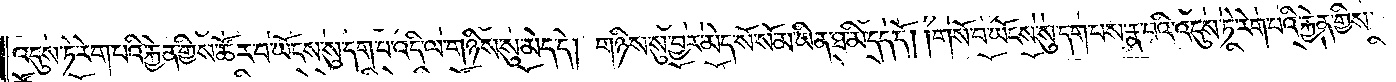འདུས་ཏེ་རེག་པའི་རྐྱེན་གྱིས་ཚོར་བ་ཡོངས་སུ་དག་པ་འདི་ལ་གཉིས་སུ་མེད་དེ། གཉིས་སུ་བྱར་མེད་སོ་སོ་མ་ཡིན་ཐ་མི་དད་དོ། །གསོ་བ་ཡོངས་སུ་དག་པས་རྣ་བའི་འདུས་ཏེ་རེག་པའི་རྐྱེན་གྱིས་
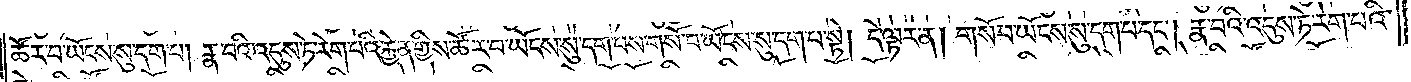ཚོར་བ་ཡོངས་སུ་དག་པ། རྣ་བའི་འདུས་ཏེ་རེག་པའི་རྐྱེན་གྱིས་ཚོར་བ་ཡོངས་སུ་དག་པས་གསོ་བ་ཡོངས་སུ་དག་པ་སྟེ། དེ་ལྟར་ན། གསོ་བ་ཡོངས་སུ་དག་པ་དང༌། རྣ་བའི་འདུས་ཏེ་རེག་པའི་
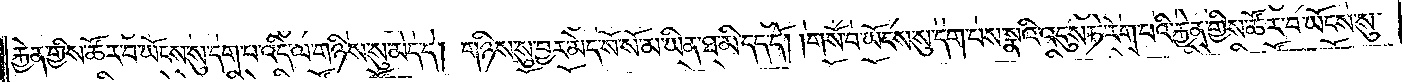རྐྱེན་གྱིས་ཚོར་བ་ཡོངས་སུ་དག་པ་འདི་ལ་གཉིས་སུ་མེད་དེ། གཉིས་སུ་བྱར་མེད་སོ་སོ་མ་ཡིན་ཐ་མི་དད་དོ། །གསོ་བ་ཡོངས་སུ་དག་པས་སྣའི་འདུས་ཏེ་རེག་པའི་རྐྱེན་གྱིས་ཚོར་བ་ཡོངས་སུ་
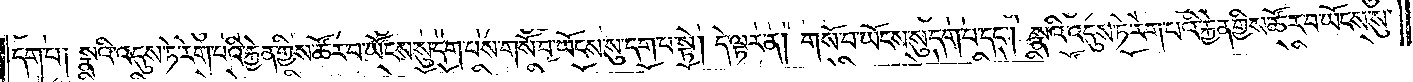དག་པ༑ སྣའི་འདུས་ཏེ་རེག་པའི་རྐྱེན་གྱིས་ཚོར་བ་ཡོངས་སུ་དག་པས་གསོ་བ་ཡོངས་སུ་དག་པ་སྟེ། དེ་ལྟར་ན། གསོ་བ་ཡོངས་སུ་དག་པ་དང༌། སྣའི་འདུས་ཏེ་རེག་པའི་རྐྱེན་གྱིས་ཚོར་བ་ཡོངས་སུ་
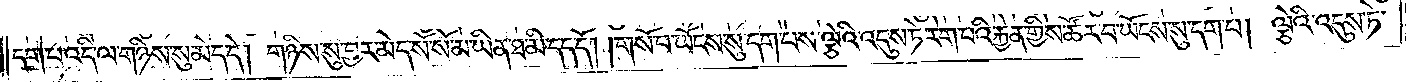དག་པ་འདི་ལ་གཉིས་སུ་མེད་དེ། གཉིས་སུ་བྱར་མེད་སོ་སོ་མ་ཡིན་ཐ་མི་དད་དོ། །གསོ་བ་ཡོངས་སུ་དག་པས་ལྕེའི་འདུས་ཏེ་རེག་པའི་རྐྱེན་གྱིས་ཚོར་བ་ཡོངས་སུ་དག་པ། ལྕེའི་འདུས་ཏེ་
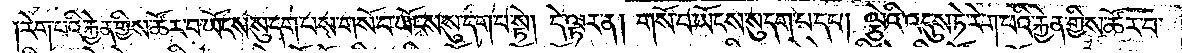རེག་པའི་རྐྱེན་གྱིས་ཚོར་བ་ཡོངས་སུ་དག་པས་གསོ་བ་ཡོངས་སུ་དག་པ་སྟེ། དེ་ལྟར་ན། གསོ་བ་ཡོངས་སུ་དག་པ་དང༌། ལྕེའི་འདུས་ཏེ་རེག་པའི་རྐྱེན་གྱིས་ཚོར་བ་
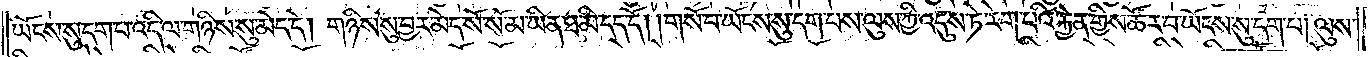ཡོངས་སུ་དག་པ་འདི་ལ་གཉིས་སུ་མེད་དེ། གཉིས་སུ་བྱར་མེད་སོ་སོ་མ་ཡིན་ཐ་མི་དད་དོ། །གསོ་བ་ཡོངས་སུ་དག་པས་ལུས་ཀྱི་འདུས་ཏེ་རེག་པའི་རྐྱེན་གྱིས་ཚོར་བ་ཡོངས་སུ་དག་པ། ལུས་
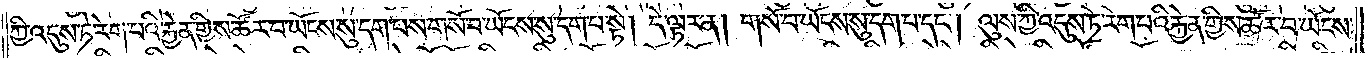ཀྱི་འདུས་ཏེ་རེག་པའི་རྐྱེན་གྱིས་ཚོར་བ་ཡོངས་སུ་དག་པས་གསོ་བ་ཡོངས་སུ་དག་པ་སྟེ། དེ་ལྟར་ན། གསོ་བ་ཡོངས་སུ་དག་པ་དང༌། ལུས་ཀྱི་འདུས་ཏེ་རེག་པའི་རྐྱེན་གྱིས་ཚོར་བ་ཡོངས་
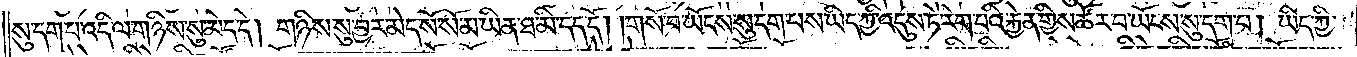སུ་དག་པ་འདི་ལ་གཉིས་སུ་མེད་དེ། གཉིས་སུ་བྱར་མེད་སོ་སོ་མ་ཡིན་ཐ་མི་དད་དོ། །གསོ་བ་ཡོངས་སུ་དག་པས་ཡིད་ཀྱི་འདུས་ཏེ་རེག་པའི་རྐྱེན་གྱིས་ཚོར་བ་ཡོངས་སུ་དག་པ། ཡིད་ཀྱི་
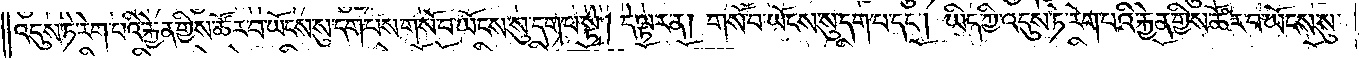འདུས་ཏེ་རེག་པའི་རྐྱེན་གྱིས་ཚོར་བ་ཡོངས་སུ་དག་པས་གསོ་བ་ཡོངས་སུ་དག་པ་སྟེ། དེ་ལྟར་ན། གསོ་བ་ཡོངས་སུ་དག་པ་དང༌། ཡིད་ཀྱི་འདུས་ཏེ་རེག་པའི་རྐྱེན་གྱིས་ཚོར་བ་ཡོངས་སུ་
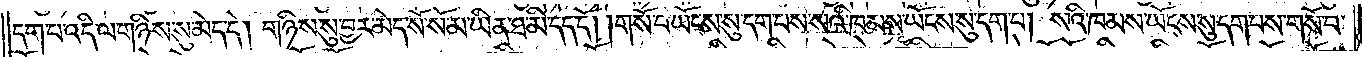དག་པ་འདི་ལ་གཉིས་སུ་མེད་དེ། གཉིས་སུ་བྱར་མེད་སོ་སོ་མ་ཡིན་ཐ་མི་དད་དོ། །གསོ་བ་ཡོངས་སུ་དག་པས་སའི་ཁམས་ཡོངས་སུ་དག་པ། སའི་ཁམས་ཡོངས་སུ་དག་པས་གསོ་བ་
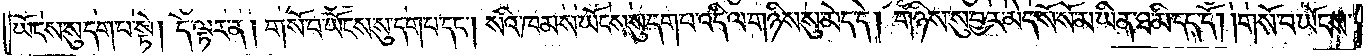ཡོངས་སུ་དག་པ་སྟེ། དེ་ལྟར་ན། གསོ་བ་ཡོངས་སུ་དག་པ་དང༌། སའི་ཁམས་ཡོངས་སུ་དག་པ་འདི་ལ་གཉིས་སུ་མེད་དེ། གཉིས་སུ་བྱར་མེད་སོ་སོ་མ་ཡིན་ཐ་མི་དད་དོ། །གསོ་བ་ཡོངས་
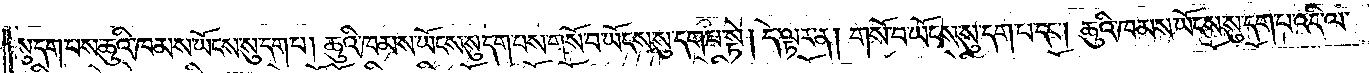སུ་དག་པས་ཆུའི་ཁམས་ཡོངས་སུ་དག་པ། ཆུའི་ཁམས་ཡོངས་སུ་དག་པས་གསོ་བ་ཡོངས་སུ་དག་པ་སྟེ། དེ་ལྟར་ན། གསོ་བ་ཡོངས་སུ་དག་པ་དང༌། ཆུའི་ཁམས་ཡོངས་སུ་དག་པ་འདི་ལ་
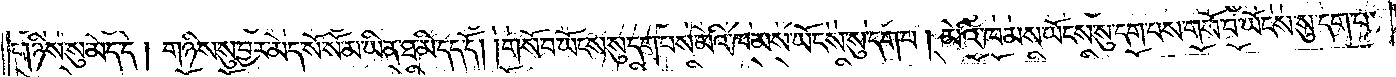གཉིས་སུ་མེད་དེ། གཉིས་སུ་བྱར་མེད་སོ་སོ་མ་ཡིན་ཐ་མི་དད་དོ། །གསོ་བ་ཡོངས་སུ་དག་པས་མེའི་ཁམས་ཡོངས་སུ་དག་པ། མེའི་ཁམས་ཡོངས་སུ་དག་པས་གསོ་བ་ཡོངས་སུ་དག་པ་
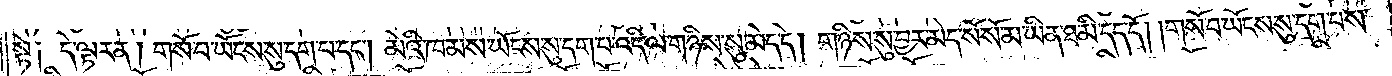སྟེ༑ དེ་ལྟར་ན། གསོ་བ་ཡོངས་སུ་དག་པ་དང༌། མེའི་ཁམས་ཡོངས་སུ་དག་པ་འདི་ལ་གཉིས་སུ་མེད་དེ། གཉིས་སུ་བྱར་མེད་སོ་སོ་མ་ཡིན་ཐ་མི་དད་དོ། །གསོ་བ་ཡོངས་སུ་དག་པས་
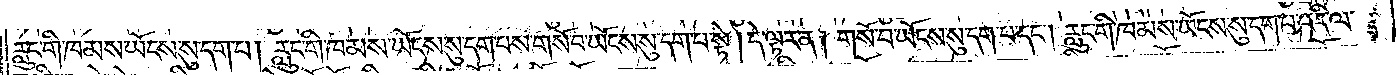རླུང་གི་ཁམས་ཡོངས་སུ་དག་པ། རླུང་གི་ཁམས་ཡོངས་སུ་དག་པས་གསོ་བ་ཡོངས་སུ་དག་པ་སྟེ། དེ་ལྟར་ན། གསོ་བ་ཡོངས་སུ་དག་པ་དང༌། རླུང་གི་ཁམས་ཡོངས་སུ་དག་པ་འདི་ལ་
